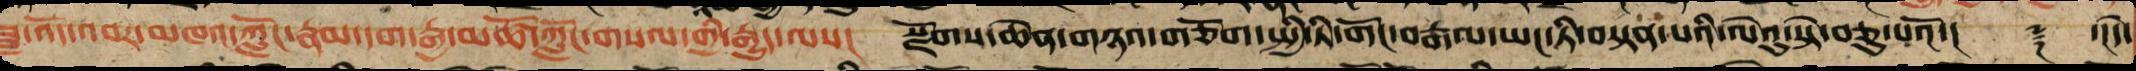ཟླ་འོད་འབར་མཁའ་ཀློང་རྣམ་དག་རྒྱ་མཚོ་ཀློང་གསལ་གྱི་རྒྱུད་ལས་། སྫོགས་ཆེན་གཉའ་གཅོག་སྤྱི་ཏི་གོང་བརྒལ་ཡང་ཏི་བསྟན་པའི་ལེའུ་སྟེ་བཅུ་པའོ་།། ༈ ་།།དེ་
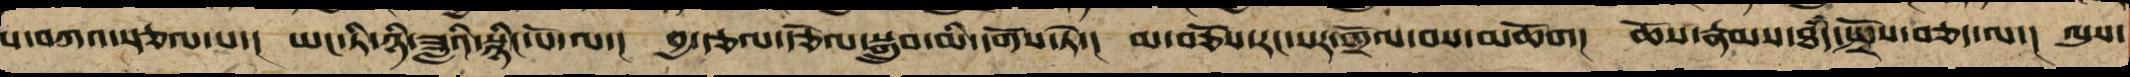ལ་བཀའ་སྩལ་པ་། ཡང་ཏི་ཉི་ཟླའི་སྙིང་པོ་ལ་། བྱ་བཙལ་རྩོལ་སྒྲུབ་མི་དགོས་ཏེ་། མ་བཅོས་རང་སར་གྲོལ་བས་མཆོག། ཆོས་རྣམས་ཐཾད་སྤྲོས་བཅད་ལ་། ལུས་
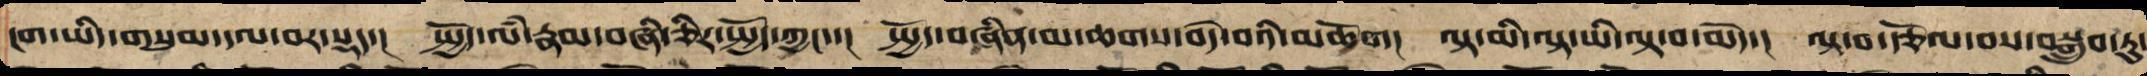ངག་ཡིད་གསུམ་དལ་བར་སྡད་། སྤྱོད་ལཾ་རྣམ་བཞི་ཅིར་སྤྱོད་ཀྱང་་། སྤྱོད་བཞིན་མ་ཆགས་བདེ་བའི་མཆོག། ལྟ་མི་བལྟ་ཡི་ལྟ་བ་མེད་། ལྟ་བ་རྩོལ་བས་བསྒྲུབ་ཏུ་
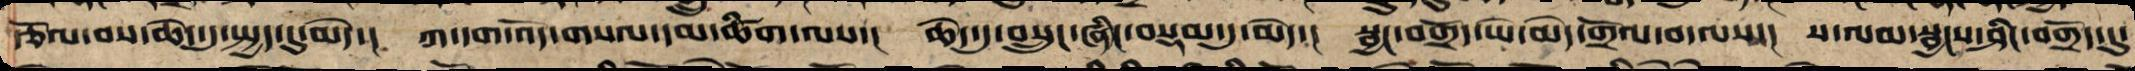རྩོལ་བས་ཆེད་དུ་སྤྱད་དུ་མེད་། ཀ་དག་འོད་གསལ་དམ་ཚིག་ལས་། ཆེད་དུ་བསྲུང་ཞིང་བསྡམ་དུ་མེད་།། སྦྱང་བགྲོད་ཡེ་མེད་གྲོལ་བ་ལས་། ས་ལམ་སྦྱངས་ཤིང་བགྲོད་དུ་
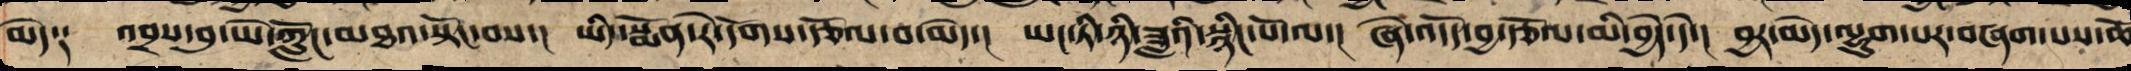མེད༑ འབྲས་བུ་ཡེ་ཀློང་མཐའ་སྟོངས་བས་། ཡིད་སྨོན་རེ་དོགས་རྩོལ་བ་མེད་། ཡང་ཏི་ཉི་ཟླའི་སྙིང་པོ་ལ་། ཞེ་འདོད་བྱ་རྩོལ་མི་བྱེད་དེ་། བྱར་མེད་ལྷུག་པར་བཞག་པས་ཆོ
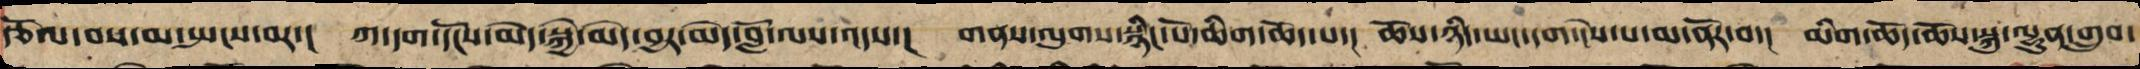རྩོལ་བས་མ་སྤངས་པར་། ཀ་དག་དངོས་མེད་སྐྱེ་མེད་བྱར་མེད་བློ་ལས་འདས་། གནས་ལུགས་སྙིང་པོ་ཆིག་ཆོད་པ་། ཆོས་ཉིད་ཡང་དག་ངེས་པ་མ་ནོར་བ་། མིག་ཆོད་ཆོས་སྐུ་ལྷུན་གྲུབ་
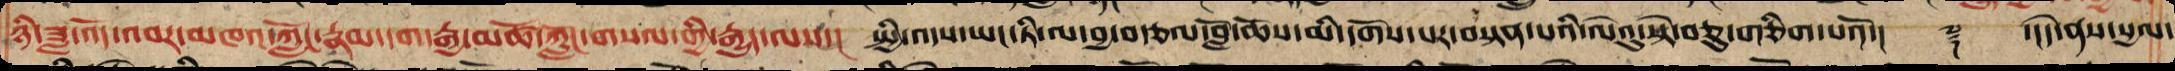ཉི་ཟླ་འོད་འབར་མཁའ་ཀློང་རྣམ་དག་རྒྱ་མཚོ་ཀློང་གསལ་གྱི་རྒྱུད་ལས་། སྤྱི་འདས་ཡང་ཏི་ལ་བྱ་བརྩལ་བློ་ཆོས་མི་དགོས་པར་བསྟན་པའི་ལེའུ་སྟེ་བཅུ་གཅིག་པའོ་།། ༈ ་།།དེ་ནས་སྱལ་
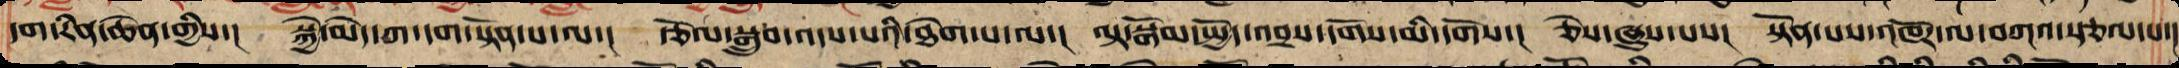དག་རིན་ཆེན་གྱིས་། སྐྱེ་མེད་ཀ་དག་སྟོན་པ་ལ་། རྩོལ་བསྒྲུབ་འདས་པའི་ཐེག་པ་ལ་། ལྟ་སྒོམ་སྤྱོད་འབྲས་དགོས་མི་དགོས་། ཅེས་ཞུས་པས་། སྟོན་པས་འཁོར་ལ་བཀའ་སྩལ་པ་།
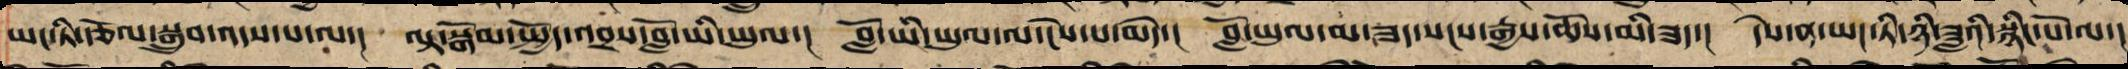ཡང་ཏི་རྩོལ་སྒྲུབ་འདས་པ་ལས་། ལྟ་སྒོམ་སྤྱོད་འབྲས་བློ་ཡི་ཡུལ་། བློ་ཡི་ཡུལ་ལས་ངེས་པ་མེད་། བློ་ཡུལ་མ་ཟད་སངས་རྒྱས་ཆོས་མི་ཟད་། དེས་ན་ཡང་ཏི་ཉི་ཟླའི་སྙིང་པོ་ལ་།
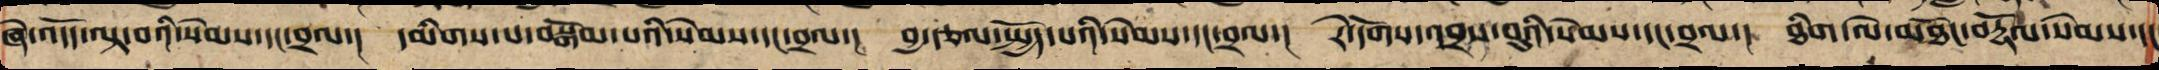ཞེ་འདོད་ལྟ་བའི་སེམས་དང་བྲལ་། དམིགས་པ་བསྒོམ་པའི་སེམས་དང་བྲལ་། བྱ་རྩལ་སྤྱོད་པའི་སེམས་དང་བྲལ་། རེ་དོགས་འབྲས་བུའི་སེམས་དང་བྲལ་། ཐིག་ལེ་མཐོང་བརྟོལ་སེམས་དང་
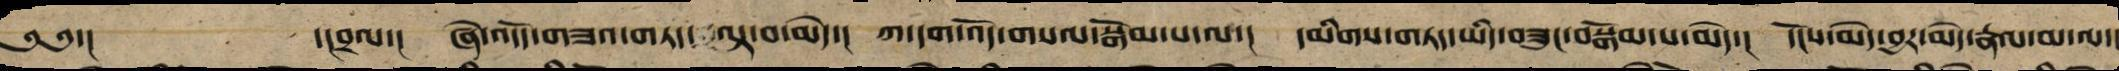༄༅་། ་།བྲལ་། ཞེ་འདོད་གཟའ་གཏད་ལྟ་བ་མེད་། ཀ་དག་འོད་གསལ་སྒོམ་པ་ལ་། དམིགས་གཏད་ཡིད་གཟུང་བསྒོམ་པ་མེད་། དངོས་མེད་བྱར་མེད་རྣལ་མ་ལ་།
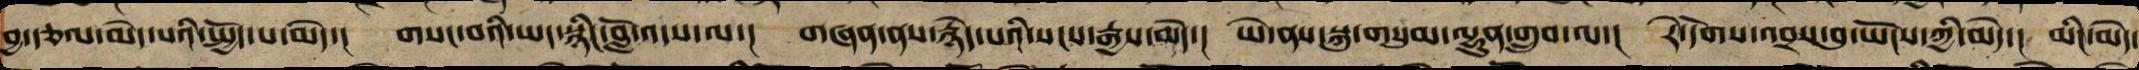བྱ་བཙལ་མེད་པས་སྤྱོད་པ་མེད་། གསང་བའི་ཡང་སྙིང་བློ་འདས་ལ་། གཞན་ནས་རྙེད་པའི་སངས་རྒྱས་མེད་། ཡེ་ནས་སྐུ་གསུམ་ལྷུན་གྲུབ་ལ་། རེ་དོགས་འབྲས་བུ་ཡོངས་ཀྱིས་མེད་། མིང་མེད་
